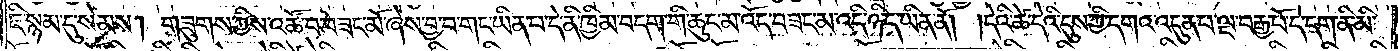ཇི་སྙམ་དུ་སེམས། གཟུགས་ཀྱིས་འཚོ་བ་བཟང་མོ་ཞེས་བྱ་བ་གང་ཡིན་པ་དེ་ནི་ཁྱིམ་བདག་གི་ཆུང་མ་འོད་བཟང་མ་འདི་ཉིད་ཡིན་ནོ། །དེའི་ཚེ་དེའི་དུས་ཀྱི་དགའ་འདུན་པ་ལྔ་བརྒྱ་པོ་དེ་དག་ནི་མི་
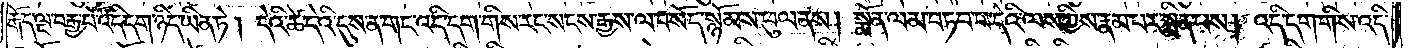རྒོད་ལྔ་བརྒྱ་པོ་འདི་དག་ཉིད་ཡིན་ཏེ། དེའི་ཚེ་དེའི་དུས་ན་གང་འདི་དག་གིས་རང་སངས་རྒྱས་ལ་བསོད་སྙོམས་ཕུལ་ནས། སྨོན་ལམ་བཏབ་པ་དེའི་ལས་ཀྱིས་རྣམ་པར་སྨིན་པས། འདི་དག་གིས་འདི་
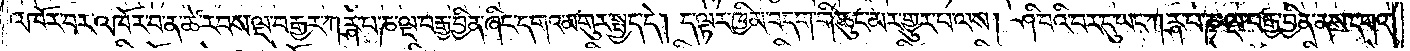འཁོར་བར་འཁོར་བ་ན་ཚེ་རབས་ལྔ་བརྒྱར་ཀཪྴ་པ་ཎ་ལྔ་བརྒྱ་བྱིན་ཞིང་དགའ་མགུར་སྤྱད་དེ། ད་ལྟར་ཁྱིམ་བདག་གི་ཆུང་མར་གྱུར་པ་ལས། ཤི་བའི་བར་དུ་ཡང་ཀཪྴ་པ་ཎ་ལྔ་བརྒྱ་བྱིན་ནས་དགའ་
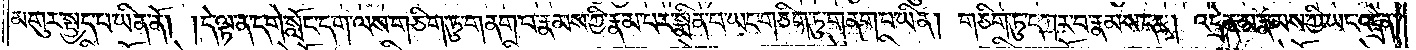མགུར་སྤྱད་པ་ཡིན་ནོ། །དེ་ལྟ་ན་དགེ་སློང་དག་ལས་གཅིག་ཏུ་གནག་པ་རྣམས་ཀྱི་རྣམ་པར་སྨིན་པ་ཡང་གཅིག་ཏུ་གནག་པ་ཡིན། གཅིག་ཏུ་དཀར་བ་རྣམས་དང༌། འདྲེན་མ་རྣམས་ཀྱི་ཡང་འདྲེན་
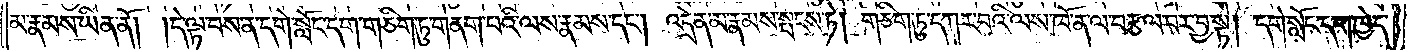མ་རྣམས་ཡིན་ནོ། །དེ་ལྟ་བས་ན་དགེ་སློང་དག་གཅིག་ཏུ་གནག་པའི་ལས་རྣམས་དང༌། འདྲེན་མ་རྣམས་སྤངས་ཏེ། གཅིག་ཏུ་དཀར་པའི་ལས་ཁོ་ན་ལ་བརྩལ་བར་བྱ་སྟེ། དགེ་སློང་དག་ཁྱེད་
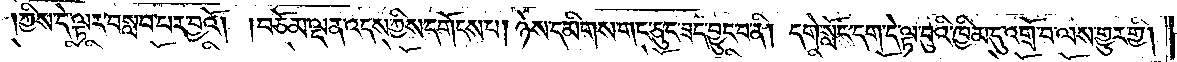ཀྱིས་དེ་ལྟར་བསླབ་པར་བྱའོ། །བཅོམ་ལྡན་འདས་ཀྱིས་དགོངས་པ། ཉེས་དམིགས་གང་ཅུང་ཟད་བྱུང་བ་ནི། དགེ་སློང་དག་དེ་ལྟ་བུའི་ཁྱིམ་དུ་འགྲོ་བ་ལས་གྱུར་གྱི།
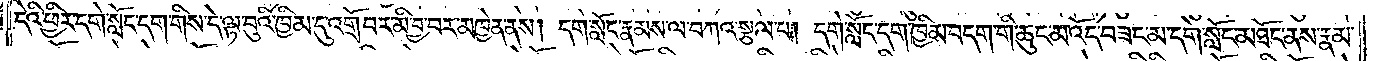དེའི་ཕྱིར་དགེ་སློང་དག་གིས་དེ་ལྟ་བུའི་ཁྱིམ་དུ་འགྲོ་བར་མི་བྱ་བར་མཁྱེན་ནས། དགེ་སློང་རྣམས་ལ་བཀའ་སྩལ་པ། དགེ་སློང་དག་ཁྱིམ་བདག་གི་ཆུང་མ་འོད་བཟང་མ་དགེ་སློང་མཐོང་ནས་རྣམ་
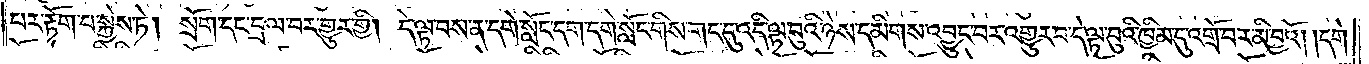པར་རྟོག་པ་སྐྱེས་ཏེ། སྲོག་དང་བྲལ་བར་གྱུར་གྱི། དེ་ལྟ་བས་ན་དགེ་སློང་དག་དགེ་སློང་གིས་གང་དུ་འདི་ལྟ་བུའི་ཉེས་དམིགས་འབྱུང་བར་འགྱུར་བ་དེ་ལྟ་བུའི་ཁྱིམ་དུ་འགྲོ་བར་མི་བྱའོ། །དགེ་
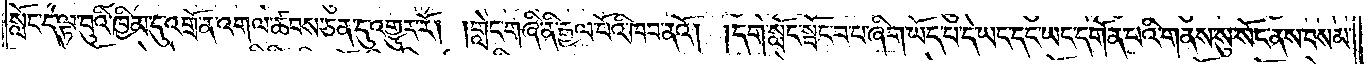སློང་དེ་ལྟ་བུའི་ཁྱིམ་དུ་འགྲོ་ན་འགལ་ཚབས་ཅན་དུ་འགྱུར་རོ། །གླེང་གཞི་ནི་རྒྱལ་པོའི་ཁབ་ནའོ། །དགེ་སློང་སྦོང་བ་པ་ཞིག་ཡོད་པ་དེ་ཡང་དང་ཡང་དགོན་པའི་གནས་སུ་སོང་ནས་བསམ་
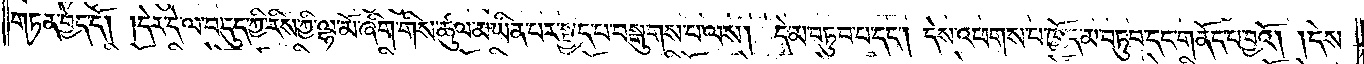གཏན་བྱེད་དོ། །དེར་དེ་ལ་བདུད་ཀྱི་རིས་ཀྱི་ལྷ་མོ་ཞིག་གིས་ཚུལ་མ་ཡིན་པར་སྤྱད་པ་བསྒུགས་པ་ལས། དེ་མ་བཏུབ་པ་དང༌། དེས་འཕགས་པ་ཁྱོད་མ་བཏུབ་དང་གནོད་པ་བྱའོ། །དེས་
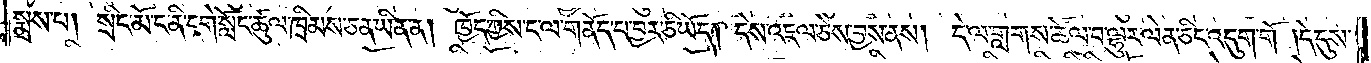སྨྲས་པ། སྲིང་མོ་ང་ནི་དགེ་སློང་ཚུལ་ཁྲིམས་ཅན་ཡིན་ན། ཁྱོད་ཀྱིས་ང་ལ་གནོད་པ་བྱར་ཅི་ཡོད། དེས་འཇལ་ཅེས་བྱས་ནས། དེ་ལ་གླགས་ཚོལ་བ་ལྷུར་ལེན་ཅིང་འདུག་གོ །དེ་དུས་
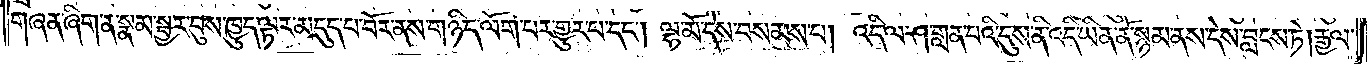གཞན་ཞིག་ན་སྣམ་སྦྱར་པུས་ཁྱུད་ལྟར་མ་དུད་པ་བོར་ནས་གཉིད་ལོག་པར་གྱུར་པ་དང༌། ལྷ་མོ་དས་བསམས་པ། འདི་ལ་ཤ་གླན་པའི་དུས་ནི་འདི་ཡིན་ནོ་སྙམ་ནས་དེས་བླངས་ཏེ། རྒྱལ་
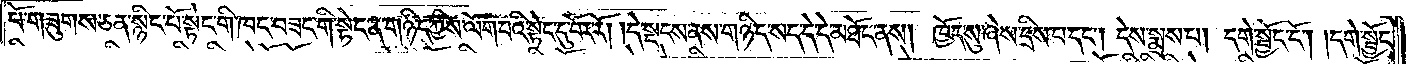པོ་གཟུགས་ཅན་སྙིང་པོ་སྟེང་གི་ཁང་བཟང་གི་སྟེང་ན་གཉིད་ཀྱིས་ལོག་པའི་སྟེང་དུ་བོར་རོ། །དེ་སྡངས་ནས་གཉིད་སད་དེ་དེ་མཐོང་ནས། ཁྱོད་སུ་ཞེས་དྲིས་པ་དང༌། དེས་སྨྲས་པ། དགེ་སྦྱོང་ངོ༌། །དགེ་སྦྱོང་
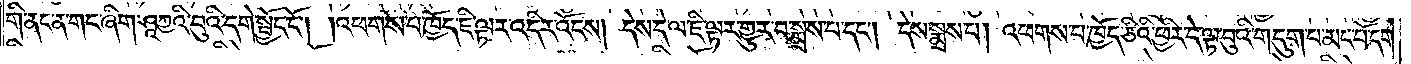གི་ནང་ན་གང་ཞིག་ཤཱཀྱའི་བུའི་དགེ་སྦྱོང་ངོ༌། །འཕགས་པ་ཁྱོད་ཇི་ལྟར་འདིར་འོངས། དེས་དེ་ལ་ཇི་ལྟར་གྱུར་པ་སྨྲས་པ་དང༌། དེས་སྨྲས་པ། འཕགས་པ་ཁྱོད་ཅིའི་ཕྱིར་དེ་ལྟ་བུའི་གདུག་པ་མང་པོ་དག་
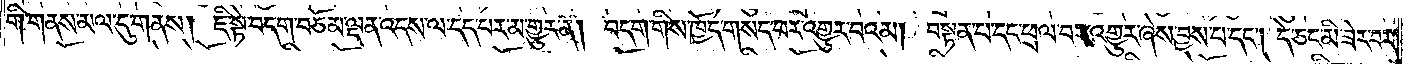གི་གནས་མལ་དུ་གནས། ཇི་སྟེ་བདག་བཅོམ་ལྡན་འདས་ལ་དད་པར་མ་གྱུར་ན། བདག་གིས་ཁྱོད་གསད་པར་འགྱུར་བའམ། བསྟན་པ་དང་ཕྲལ་བར་འགྱུར་ཞེས་བྱས་པ་དང༌། དེ་ཅང་མི་ཟེར་བར་
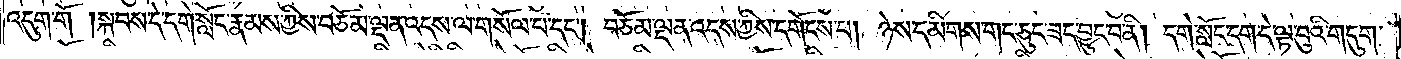འདུག་གོ །སྐབས་དེ་དགེ་སློང་རྣམས་ཀྱིས་བཅོམ་ལྡན་འདས་ལ་གསོལ་བ་དང༌། བཅོམ་ལྡན་འདས་ཀྱིས་དགོངས་པ། ཉེས་དམིགས་གང་ཅུང་ཟད་བྱུང་བ་ནི། དགེ་སློང་དག་དེ་ལྟ་བུའི་གདུག་
